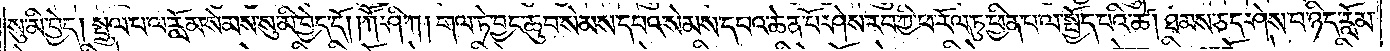སུ་མི་བྱེད། སྤྲུལ་པ་ལ་རློམ་སེམས་སུ་མི་བྱེད་དོ། །ཀཽ་ཤི་ཀ། གལ་ཏེ་བྱང་ཆུབ་སེམས་དཔའ་སེམས་དཔའ་ཆེན་པོ་ཤེས་རབ་ཀྱི་ཕ་རོལ་ཏུ་ཕྱིན་པ་ལ་སྤྱོད་པའི་ཚེ། ཐམས་ཅད་ཤེས་པ་ཉིད་རློམ་
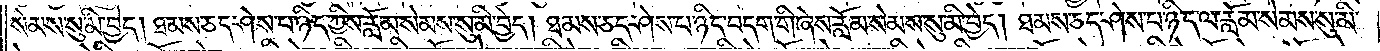སེམས་སུ་མི་བྱེད། ཐམས་ཅད་ཤེས་པ་ཉིད་ཀྱིས་རློམ་སེམས་སུ་མི་བྱེད། ཐམས་ཅད་ཤེས་པ་ཉིད་བདག་གི་ཞེས་རློམ་སེམས་སུ་མི་བྱེད། ཐམས་ཅད་ཤེས་པ་ཉིད་ལ་རློམ་སེམས་སུ་མི་
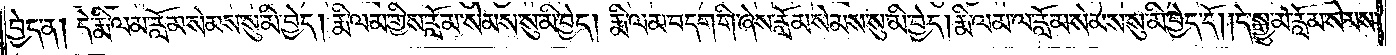བྱེད་ན། དེ་རྨི་ལམ་རློམ་སེམས་སུ་མི་བྱེད། རྨི་ལམ་གྱིས་རློམ་སེམས་སུ་མི་བྱེད། རྨི་ལམ་བདག་གི་ཞེས་རློམ་སེམས་སུ་མི་བྱེད། རྨི་ལམ་ལ་རློམ་སེམས་སུ་མི་བྱེད་དོ། །དེ་སྒྱུ་མ་རློམ་སེམས་
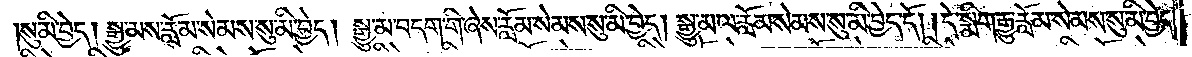སུ་མི་བྱེད། སྒྱུ་མས་རློམ་སེམས་སུ་མི་བྱེད། སྒྱུ་མ་བདག་གི་ཞེས་རློམ་སེམས་སུ་མི་བྱེད། སྒྱུ་མ་ལ་རློམ་སེམས་སུ་མི་བྱེད་དོ། །དེ་སྨིག་རྒྱུ་རློམ་སེམས་སུ་མི་བྱེད།
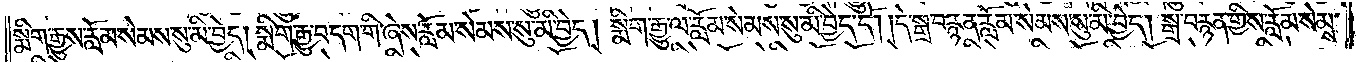སྨིག་རྒྱུས་རློམ་སེམས་སུ་མི་བྱེད། སྨིག་རྒྱུ་བདག་གི་ཞེས་རློམ་སེམས་སུ་མི་བྱེད། སྨིག་རྒྱུ་ལ་རློམ་སེམས་སུ་མི་བྱེད་དོ། །དེ་སྒྲ་བརྙན་རློམ་སེམས་སུ་མི་བྱེད། སྒྲ་བརྙན་གྱིས་རློམ་སེམས་
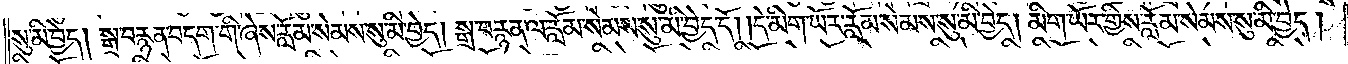སུ་མི་བྱེད། སྒྲ་བརྙན་བདག་གི་ཞེས་རློམ་སེམས་སུ་མི་བྱེད། སྒྲ་བརྙན་ལ་རློམ་སེམས་སུ་མི་བྱེད་དོ། །དེ་མིག་ཡོར་རློམ་སེམས་སུ་མི་བྱེད། མིག་ཡོར་གྱིས་རློམ་སེམས་སུ་མི་བྱེད།
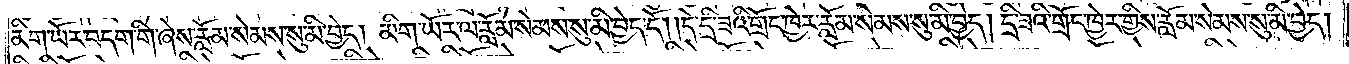མིག་ཡོར་བདག་གི་ཞེས་རློམ་སེམས་སུ་མི་བྱེད། མིག་ཡོར་ལ་རློམ་སེམས་སུ་མི་བྱེད་དོ། །དེ་དྲི་ཟའི་གྲོང་ཁྱེར་རློམ་སེམས་སུ་མི་བྱེད། དྲི་ཟའི་གྲོང་ཁྱེར་གྱིས་རློམ་སེམས་སུ་མི་བྱེད།
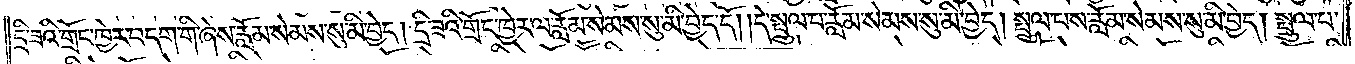དྲི་ཟའི་གྲོང་ཁྱེར་བདག་གི་ཞེས་རློམ་སེམས་སུ་མི་བྱེད། དྲི་ཟའི་གྲོང་ཁྱེར་ལ་རློམ་སེམས་སུ་མི་བྱེད་དོ། །དེ་སྤྲུལ་པ་རློམ་སེམས་སུ་མི་བྱེད། སྤྲུལ་པས་རློམ་སེམས་སུ་མི་བྱེད། སྤྲུལ་པ་
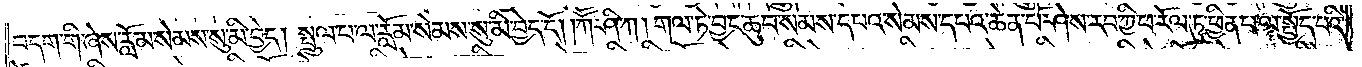བདག་གི་ཞེས་རློམ་སེམས་སུ་མི་བྱེད། སྤྲུལ་པ་ལ་རློམ་སེམས་སུ་མི་བྱེད་དོ། །ཀཽ་ཤི་ཀ། གལ་ཏེ་བྱང་ཆུབ་སེམས་དཔའ་སེམས་དཔའ་ཆེན་པོ་ཤེས་རབ་ཀྱི་ཕ་རོལ་ཏུ་ཕྱིན་པ་ལ་སྤྱོད་པའི་
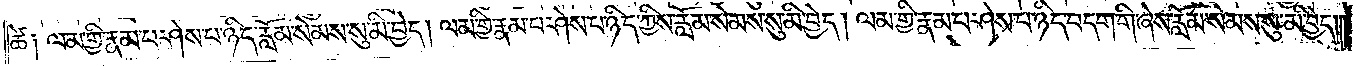ཚེ༑ ལམ་གྱི་རྣམ་པ་ཤེས་པ་ཉིད་རློམ་སེམས་སུ་མི་བྱེད། ལམ་གྱི་རྣམ་པ་ཤེས་པ་ཉིད་ཀྱིས་རློམ་སེམས་སུ་མི་བྱེད། ལམ་གྱི་རྣམ་པ་ཤེས་པ་ཉིད་བདག་གི་ཞེས་རློམ་སེམས་སུ་མི་བྱེད།
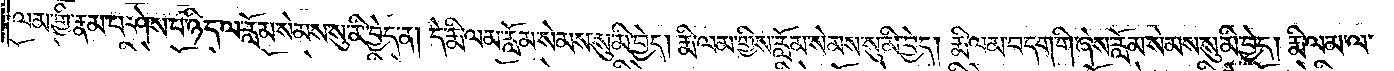ལམ་གྱི་རྣམ་པ་ཤེས་པ་ཉིད་ལ་རློམ་སེམས་སུ་མི་བྱེད་ན། དེ་རྨི་ལམ་རློམ་སེམས་སུ་མི་བྱེད། རྨི་ལམ་གྱིས་རློམ་སེམས་སུ་མི་བྱེད། རྨི་ལམ་བདག་གི་ཞེས་རློམ་སེམས་སུ་མི་བྱེད། རྨི་ལམ་ལ་
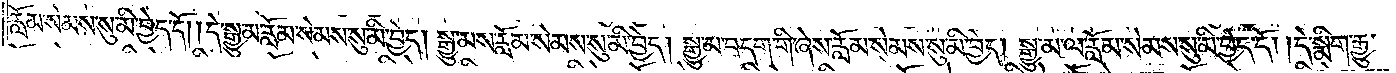རློམ་སེམས་སུ་མི་བྱེད་དོ། །དེ་སྒྱུ་མ་རློམ་སེམས་སུ་མི་བྱེད། སྒྱུ་མས་རློམ་སེམས་སུ་མི་བྱེད། སྒྱུ་མ་བདག་གི་ཞེས་རློམ་སེམས་སུ་མི་བྱེད། སྒྱུ་མ་ལ་རློམ་སེམས་སུ་མི་བྱེད་དོ། །དེ་སྨིག་རྒྱུ་
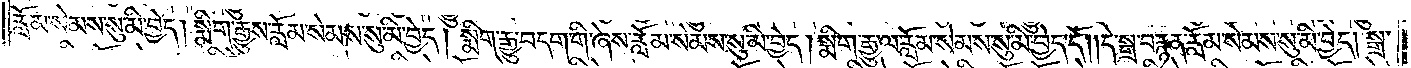རློམ་སེམས་སུ་མི་བྱེད། སྨིག་རྒྱུས་རློམ་སེམས་སུ་མི་བྱེད། སྨིག་རྒྱུ་བདག་གི་ཞེས་རློམ་སེམས་སུ་མི་བྱེད། སྨིག་རྒྱུ་ལ་རློམ་སེམས་སུ་མི་བྱེད་དོ། །དེ་སྒྲ་བརྙན་རློམ་སེམས་སུ་མི་བྱེད། སྒྲ་
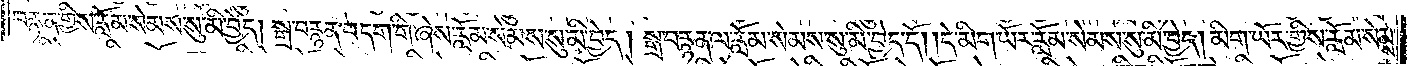བརྙན་གྱིས་རློམ་སེམས་སུ་མི་བྱེད། སྒྲ་བརྙན་བདག་གི་ཞེས་རློམ་སེམས་སུ་མི་བྱེད། སྒྲ་བརྙན་ལ་རློམ་སེམས་སུ་མི་བྱེད་དོ། །དེ་མིག་ཡོར་རློམ་སེམས་སུ་མི་བྱེད། མིག་ཡོར་གྱིས་རློམ་སེམས་
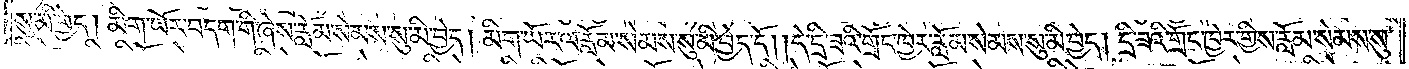སུ་མི་བྱེད། མིག་ཡོར་བདག་གི་ཞེས་རློམ་སེམས་སུ་མི་བྱེད། མིག་ཡོར་ལ་རློམ་སེམས་སུ་མི་བྱེད་དོ། །དེ་དྲི་ཟའི་གྲོང་ཁྱེར་རློམ་སེམས་སུ་མི་བྱེད། དྲི་ཟའི་གྲོང་ཁྱེར་གྱིས་རློམ་སེམས་སུ་
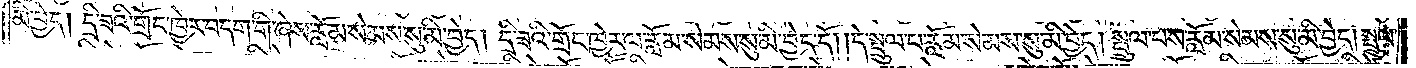མི་བྱེད། དྲི་ཟའི་གྲོང་ཁྱེར་བདག་གི་ཞེས་རློམ་སེམས་སུ་མི་བྱེད། དྲི་ཟའི་གྲོང་ཁྱེར་ལ་རློམ་སེམས་སུ་མི་བྱེད་དོ། །དེ་སྤྲུལ་པ་རློམ་སེམས་སུ་མི་བྱེད། སྤྲུལ་པས་རློམ་སེམས་སུ་མི་བྱེད། སྤྲུལ་
